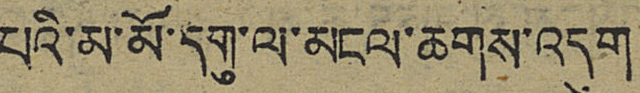པའི་མ་མོ་དགུ་ལ་མངལ་ཆགས་འདུག
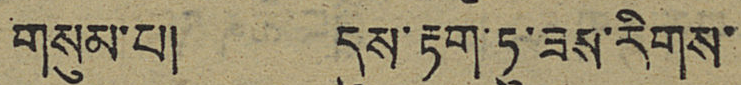གསུམ་པ། དུས་རྟག་ཏུ་ཟས་རིགས་
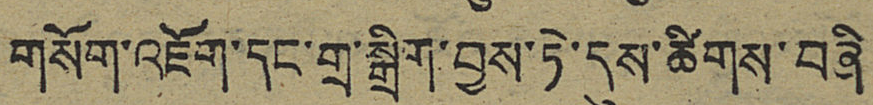གསོག་འཇོག་དང་གྲ་སྒྲིག་བྱས་ཏེ་དུས་ཚིགས་བཞི
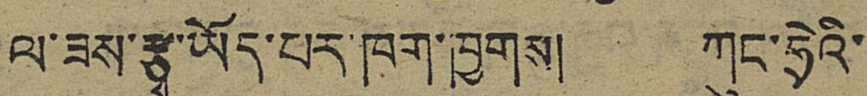ལ་ཟས་རྩྭ་ཡོད་པར་ཁག་ཁྱགས། ཀུང་ཧྲེའི་
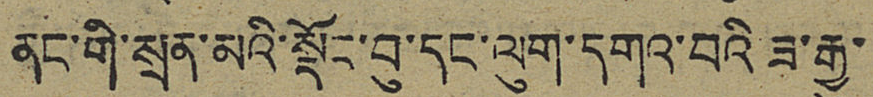ནང་གི་སྲན་མའི་སྡོང་བུ་དང་ལུག་དགའ་བའི ཟ་རྒྱུ་
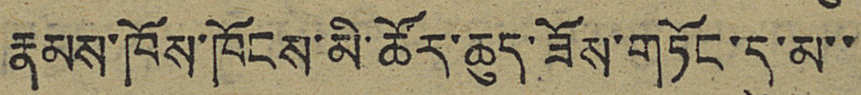རྣམས་ཁོས་ཁོངས་མི་ཚོར་ཆུད་ཟོས་གཏོང་དུ་མ་་
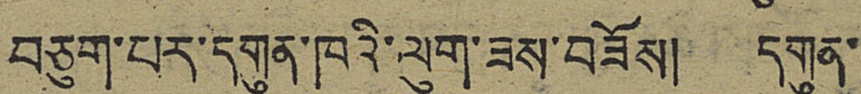བཅུག་པར་དགུན་ཁའི་ལུག་ཟས་བཟོས། དགུན་
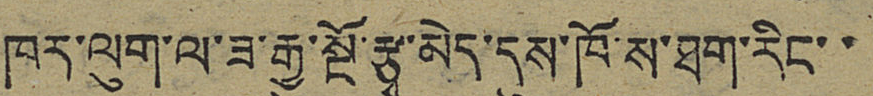ཁར་ལུག་ལ་ཟ་རྒྱུ་སྔོ་རྩྭ་མེད་དུས་ཁོ་ས་ཐག་རིང་་
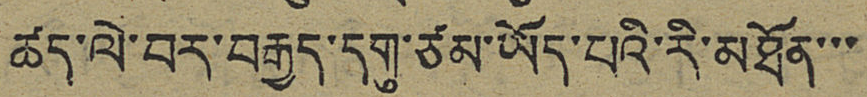ཚད་ལེ་བར་བརྒྱད་དགུ་ཙམ་ཡོད་པའི་རི་མཐོན་་་
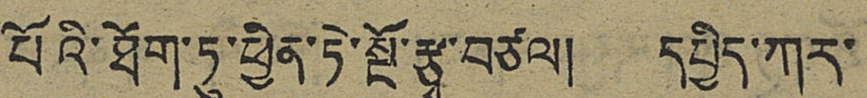པོའི་ཐོག་ཏུ་ཕྱིན་ཏེ་སྔོ་རྩྭ་བཙལ། དཔྱིད་ཀར་
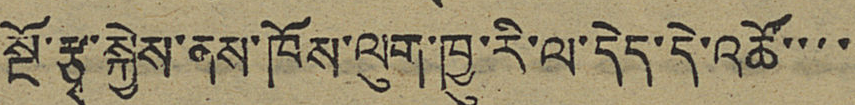སྔོ་རྩྭ་སྐྱེས་ནས་ཁོས་ལུག་ཁྱུ་རི་ལ་དེད་དེ་འཚོ་་་་
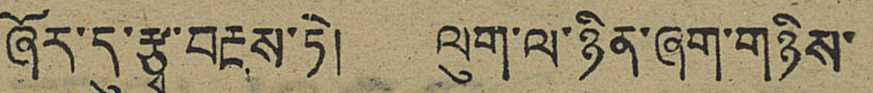ཞོར་དུ་རྩྭ་བརྔས་ཏེ། ལུག་ལ་ཉིན་ཞག་གཉིས་
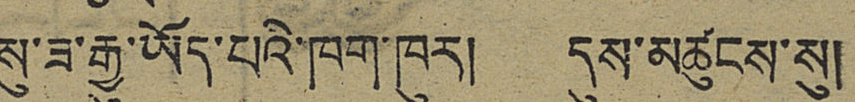སུ་ཟ་རྒྱུ་ཡོད་པའི་ཁག་ཁུར། དུས་མཚུངས་སུ།
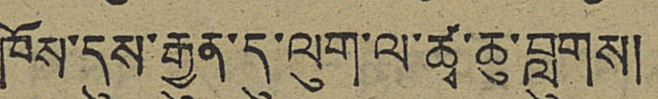ཁོས་དུས་རྒྱུན་དུ་ལུག་ལ་ཚྭ་ཆུ་བླུགས།
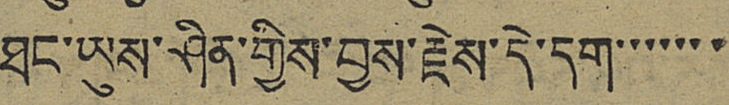ཐང་ཡུས་ཤིན་གྱིས་བྱས་རྗེས་དེ་དག་་་་་་་
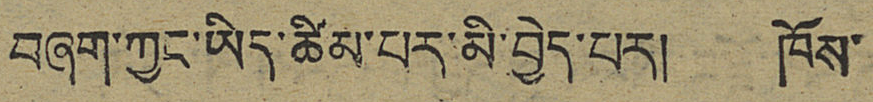བཞག་ཀྱང་ཡིད་ཚིམ་པར་མི་བྱེད་པར། ཁོས་
